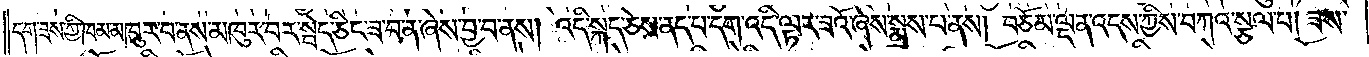དག་ཟས་ཀྱི་ཁམ་མཁུར་བ་ནས་མཁུར་བར་སྦེད་ཅིང་ཟ་བ་ན་ཞེས་བྱ་བ་ནས། འདི་སྐད་ཅེས་ནད་པ་དག་འདི་ལྟར་ཟའོ་ཞེས་སྨྲས་པ་ནས། བཅོམ་ལྡན་འདས་ཀྱིས་བཀའ་སྩལ་པ། ཟས་
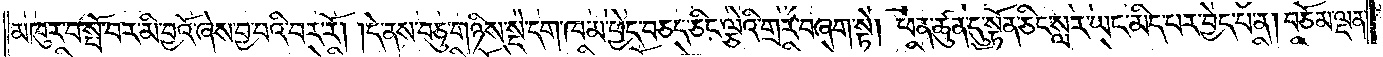མཁུར་བ་སྤོ་བར་མི་བྱའོ་ཞེས་བྱ་བའི་བར་རོ། །དེ་ནས་བཅུ་གཉིས་སྡེ་དག་ཁམ་ཕྱེད་བཅད་ཅིང་ལྕེའི་གྲར་བཞག་སྟེ། ཕན་ཚུན་དུ་སྟོན་ཅིང་སླར་ཡང་མིད་པར་བྱེད་པ་ན། བཅོམ་ལྡན་
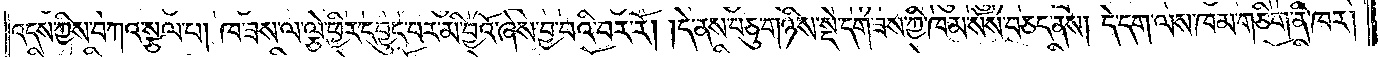འདས་ཀྱིས་བཀའ་སྩལ་པ། ཁ་ཟས་ལ་ལྕེ་ཕྱིར་དབྱུང་བར་མི་བྱའོ་ཞེས་བྱ་བའི་བར་རོ། །དེ་ནས་བཅུ་གཉིས་སྡེ་དག་ཟས་ཀྱི་ཁམ་སོས་བཅད་ནས། དེ་དག་ལས་ཁམ་གཅིག་ནི་ཁར།
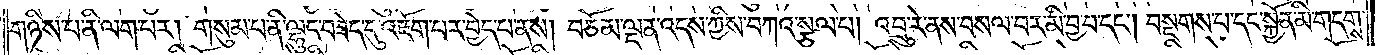གཉིས་པ་ནི་ལག་པར། གསུམ་པ་ནི་ལྷུང་བཟེད་དུ་འཇོག་པར་བྱེད་པ་ནས། བཅོམ་ལྡན་འདས་ཀྱིས་བཀའ་སྩལ་པ། འབྲུ་རེ་ནས་བསལ་བར་མི་བྱ་བ་དང༌། བསྔགས་པ་དང་སྐྱོན་མི་གདགས་
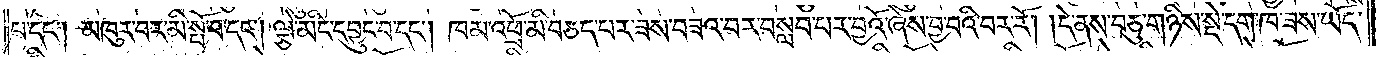པ་དང༌། མཁུར་བར་མི་སྤོ་བ་དང༌། ལྕེ་མིང་དབྱུང་བ་དང༌། ཁམ་འཕྲོ་མི་བཅད་པར་ཟས་བཟའ་བར་བསླབ་པར་བྱའོ་ཞེས་བྱ་བའི་བར་རོ། །དེ་ནས་བཅུ་གཉིས་སྡེ་དག་ཁ་ཟས་ཡོད་
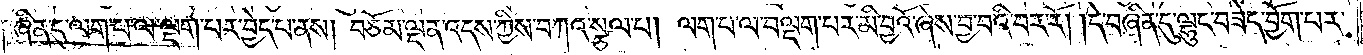བཞིན་དུ་ལག་པ་ལ་ལྡག་པར་བྱེད་པ་ནས། བཅོམ་ལྡན་འདས་ཀྱིས་བཀའ་སྩལ་པ། ལག་པ་ལ་བལྡག་པར་མི་བྱའོ་ཞེས་བྱ་བའི་བར་རོ། །དེ་བཞིན་དུ་ལྷུང་བཟེད་བྱོག་པར་
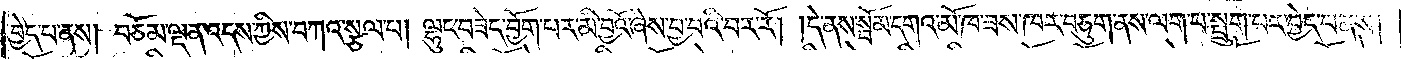བྱེད་པ་ནས། བཅོམ་ལྡན་འདས་ཀྱིས་བཀའ་སྩལ་པ། ལྷུང་བཟེད་བྱོག་པར་མི་བྱའོ་ཞེས་བྱ་བའི་བར་རོ། །དེ་ནས་སྦོམ་དགའ་མོ་ཁ་ཟས་ཁར་བཅུག་ནས་ལག་པ་སྤྲུག་པར་བྱེད་པ་ནས།
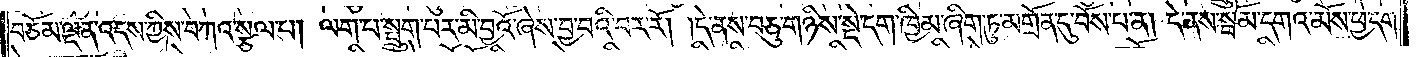བཅོམ་ལྡན་འདས་ཀྱིས་བཀའ་སྩལ་པ། ལག་པ་སྤྲུག་པར་མི་བྱའོ་ཞེས་བྱ་བའི་བར་རོ། །དེ་ནས་བཅུ་གཉིས་སྡེ་དག་ཁྱིམ་ཞིག་ཏུ་མགྲོན་དུ་བོས་པ་ན། དེ་ནས་སྦོམ་དགའ་མོས་ཕྱེ་དག་
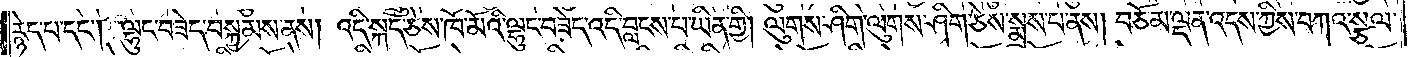རྙེད་པ་དང༌། ལྷུང་བཟེད་བསྐྱམས་ནས། འདི་སྐད་ཅེས་ཁོ་མོའི་ལྷུང་བཟེད་འདི་བླངས་པ་ཡིན་གྱི། ལུགས་ཤིག་ལུགས་ཤིག་ཅེས་སྨྲས་པ་ནས། བཅོམ་ལྡན་འདས་ཀྱིས་བཀའ་སྩལ་
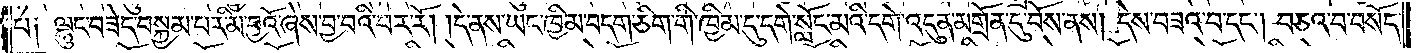པ༑ ལྷུང་བཟེད་བསྐྱམ་པར་མི་བྱའོ་ཞེས་བྱ་བའི་བར་རོ། །དེ་ནས་ཡང་ཁྱིམ་བདག་ཅིག་གི་ཁྱིམ་དུ་དགེ་སློང་མའི་དགེ་འདུན་མགྲོན་དུ་བོས་ནས། དེས་བཟའ་བ་དང༌། བཅའ་བ་བསོད་
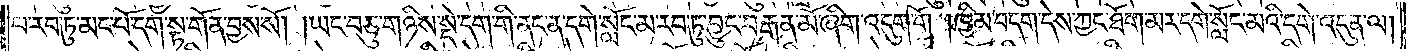པ་རབ་ཏུ་མང་པོ་དག་སྟ་གོན་བྱས་སོ། །ཡང་བཅུ་གཉིས་སྡེ་དག་གི་ནང་ན་དགེ་སློང་མ་རབ་ཏུ་བྱུང་བ་རྒན་མོ་ཞིག་འདུག་གོ །ཁྱིམ་བདག་དེས་ཀྱང་ཐོག་མར་དགེ་སློང་མའི་དགེ་འདུན་ལ།
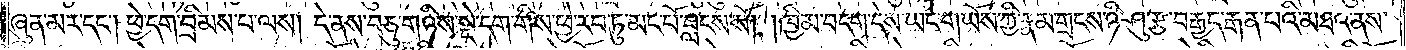ཞུན་མར་དང༌། ཕྱེ་དག་བྲིམས་པ་ལས། དེ་ནས་བཅུ་གཉིས་སྡེ་དག་གིས་ཕྱེ་རབ་ཏུ་མང་པོ་བླངས་སོ། །ཁྱིམ་བདག་དེས་ཡང་གཡོས་ཀྱི་རྣམ་གྲངས་ཉི་ཤུ་རྩ་བརྒྱད་རྒན་པའི་མཐའ་ནས་
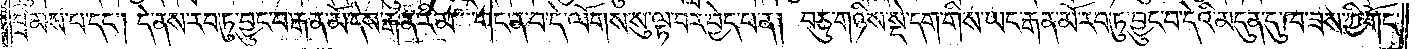བྲིམས་པ་དང༌། དེ་ནས་རབ་ཏུ་བྱུང་བ་རྒན་མོ་དེས་རྒན་རིམ་གང་ན་བ་དེ་ལོགས་སུ་ལྟ་བར་བྱེད་པ་ན། བཅུ་གཉིས་སྡེ་དག་གིས་ཡང་རྒན་མོ་རབ་ཏུ་བྱུང་བ་དེའི་མདུན་དུ་ཁ་ཟས་ཀྱི་གོང་
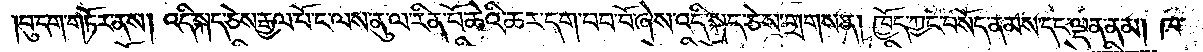བུ་དག་གཏོར་ནས། འདི་སྐད་ཅེས་རྒྱལ་པོ་ང་ལས་ནུ་ལ་རིན་པོ་ཆེའི་ཆར་དག་བབ་བོ་ཞེས་འདི་སྐད་ཅེས་གྲགས་ན། ཁྱོད་ཀྱང་བསོད་ནམས་དང་ལྡན་ནམ། །བ་
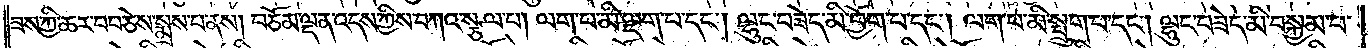ཟས་ཀྱི་ཆར་བབ་ཅེས་སྨྲས་པ་ནས། བཅོམ་ལྡན་འདས་ཀྱིས་བཀའ་སྩལ་པ། ལག་པ་མི་ལྡག་པ་དང༌། ལྷུང་བཟེད་མི་བྱོག་པ་དང༌། ལག་པ་མི་སྤྲུག་པ་དང༌། ལྷུང་བཟེད་མི་བསྐྱམ་པ་
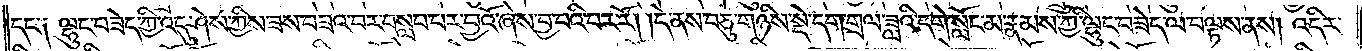དང་༑ ལྷུང་བཟེད་ཀྱི་འདུ་ཤེས་ཀྱིས་ཟས་བཟའ་བར་བསླབ་པར་བྱའོ་ཞེས་བྱ་བའི་བར་རོ། །དེ་ནས་བཅུ་གཉིས་སྡེ་དག་གྲལ་ཟླའི་དགེ་སློང་མ་རྣམས་ཀྱི་ལྷུང་བཟེད་ལ་བལྟས་ནས། འདིར་
